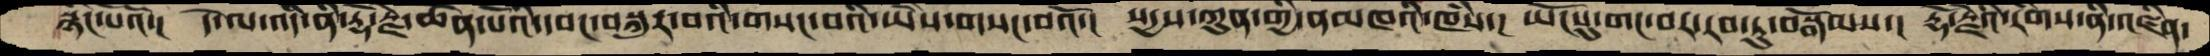སྙིང་པོའོ་།  དེ་ལ་འདི་ནི་རྡོ་རྗེ་ཆེན་པོའི་དབང་བསྐུར་བའི་གསང་བའི་ཡཻས་གསང་བའོ་།  སདྱས་ཀུན་གྱི་ནམཁའི་ཁཾས་།  ཡོངསུ་གང་བར་རབ་ཏུ་བསྒོམས་།  རྡོ་རྗེའི་རིགས་ནི་འཛིན་
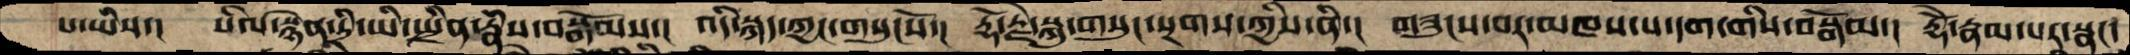པ་ཡིས་།  སིལ་སྙེན་དྲི་ཡི་སྤྲིན་རྣཾས་བསྒོམས་།  འདི་སྐད་ཀྱང་གསུངསོ་།  རྡོ་རྗེ་སྐུ་གསུང་སྔགས་ཀྱིས་ནི་།  གཟུངས་བར་མཁས་པ་དག་གིས་བསྒོམ་།  རྡོེ་རྣམ་པར་སྣང་
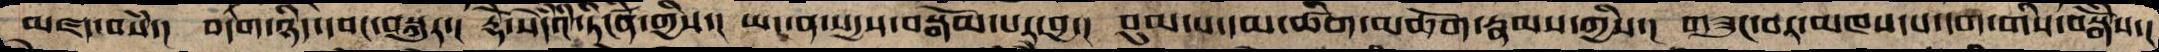མཛད་བསཾ་།  བདག་ཉིད་དབང་བསྐུར་།  རྡོེ་སེདཾའི་ཏིངཛིན་གྱིས་།  ཡང་ན་སདྱས་བསྒོམ་པར་བྱ་།  བུམ་པ་དམ་ཚིག་མཆོག་རྣམས་ཀྱིས་།  གཟུང་བར་མཁས་པ་དག་གིས་བསྒོཾས་།
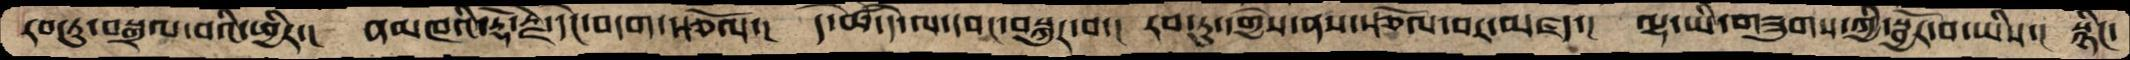རབ་ཏུ་བསྒྲལ་བའི་ཕྱིར་།  ནམཁའི་རྡོ་རྗེ་དེང་བདག་སྩོལ་།  དེ་ཚེ་དེ་ལ་དབང་བསྐུར་བ་།  རབ་ཏུ་དགྱེས་ནས་སྩོལ་བར་མཛད་།  ལྷ་ཡི་གཟུགས་ཀྱི་སྦྱོར་བ་ཡིས་།  སྙིང་
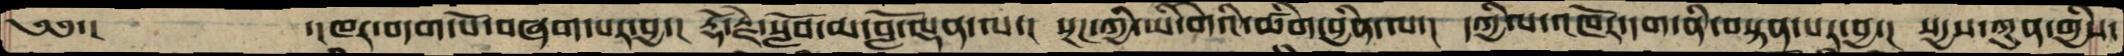༄༅་།    ་།ཁར་བདག་པོ་བཞག་པར་བྱ་།  རྡོ་རྗེ་སློབ་མ་བློ་ལྡན་ལ་།  སྔཌ་ཀྱི་ཡི་གེའི་ཚིག་བྱིན་ལ་།  དཀྱིལ་འཁོར་དག་ནི་བསྟན་པར་བྱ་།  སདྱས་ཀུན་གྱིས་
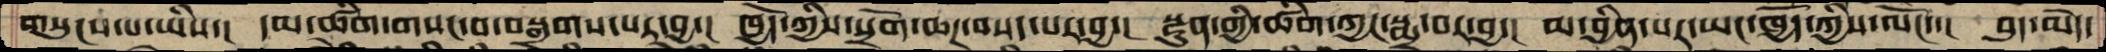གསུངས་པ་ཡིས་།  དམ་ཚིག་གསང་བ་བསྒུགས་པར་བྱ་།  ཁྱོད་ཀྱིས་སྲོག་ཆཌ་བསད་པར་བྱ་།  སྫུན་གྱི་ཚིག་ཀྱང་སྨྲ་བར་བྱ་།  མ་བྱིན་པར་ཡང་ཁྱོད་ཀྱིས་ལོང་་།  བུད་མེད་
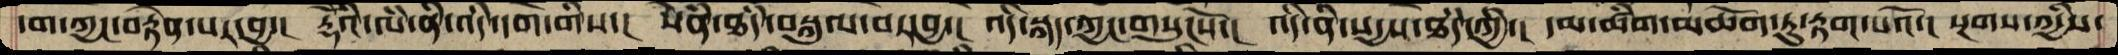དག་ཀྱང་བརྟེན་པར་བྱ་།  རྡོེའི་ལཾ་ནི་འདི་དག་གིས་།  སེཾན་ཐདཾ་བསྐུལ་བར་བྱ་།  འདི་སྐད་ཀྱང་གསུངསོ་།  འདི་ནི་སདྱས་ཐདཾ་ཀྱི་།  དམ་ཚིག་མཆོག་ཏུ་རྟག་པའོ་།  སྔགས་ཀྱིས་
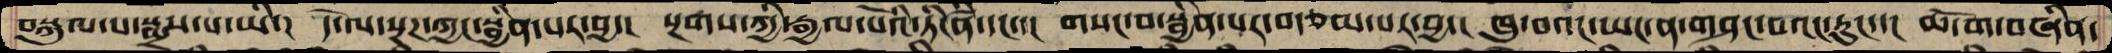བསྐུལ་པ་སྨྲས་པ་ཡི་།  དེ་ལ་སྔཌ་ཀྱང་སྦྱིན་པར་བྱ་།  སྔགས་ཀྱི་རྒྱལ་པོའི་ཏིངཛིན་དང་་།  གསང་བ་སྦྱིན་པར་བརྩམ་པར་བྱ་།  ཁུ་བའང་ཡང་ན་གཤང་བའང་རུང་་།  ཆོ་ག་བཞིན་
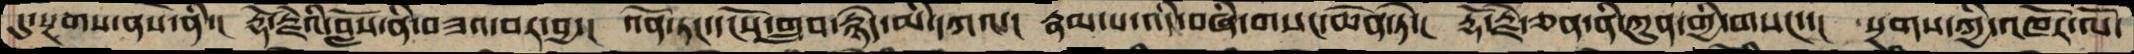དུ་སྔགས་ནས་ནི་།  རྡོ་རྗེའི་བློས་ནི་བཟའ་བར་བྱ་།  འོན་ཏང་དངོས་གྲུབ་རྙེད་མི་དཀའ་།  རྣམ་པ་འདི་བཞི་གསང་ཆེན་ཏེ་།  རྡོ་རྗེ་ཅན་ནི་ཀུན་གྱི་གསང་་།  སྔགས་ཀྱི་འཁོར་ལོ་
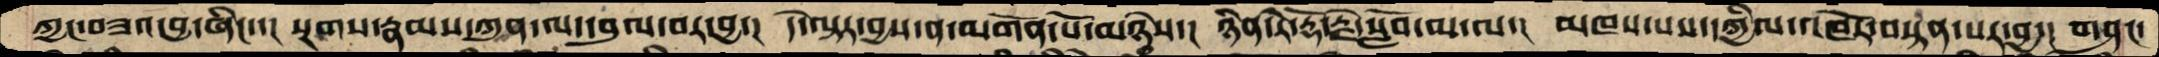ཀྱང་བཟའ་བྱ་ཞིང་་།  སྔགས་རྣམས་ཀུན་ལ་དབུལ་བར་བྱ་།  དེ་ལྟར་བྱས་ན་མགོན་པོ་མཉེས་།  ཉིན་རེ་རྡོ་རྗེ་སློབ་མ་ལ་།  མཁས་པས་དཀྱིལ་འཁོར་བསྟན་པར་བྱ་།  གཤང་
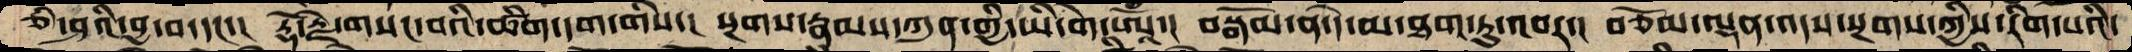ཅི་ཤའི་བྱ་བ་དང་་།  རྡོ་རྗེ་གསང་བའི་ཚིག་དག་གིས་།  སྔགས་རྣམས་ཀུན་གྱི་ཡི་གེ་ཨོཾ་།  བསྒོམ་ན་དེ་མ་ཐག་ཏུ་འབར་།  བཅོམ་ལྡན་འདས་སྔགས་ཀྱིས་རིག་པའི་
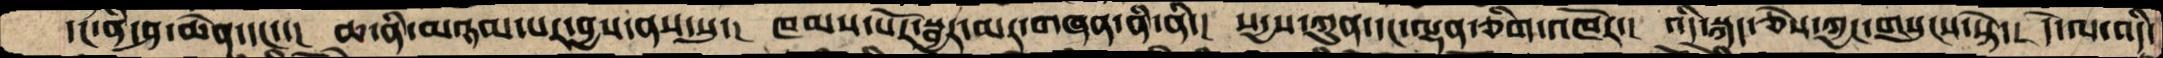དང་ནི་ཤ་ཆེན་དང་་།  ཆ་ནི་མཉམ་པར་བྱས་ནས་སུ་།  ཁམས་སོར་སྦྱར་མར་གཞན་ནི་ནི་།  སདྱས་ཀུན་དང་ལྡན་ཅིག་འཁོར་།  འདི་སྐད་ཅེས་ཀྱང་གསུངས་སྟེ་།  དེ་ལ་འདི་
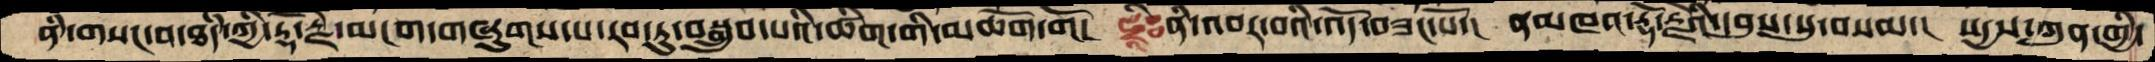ནི་གསང་བ་ཐཾད་ཀྱི་རྡོ་རྗེ་མངག་གཞུགས་པ་རབ་ཏུ་བསྒྲུབ་པའི་ཚིག་གི་མཆོག་གོ།  ཧྲིཿནི་འབར་བའི་འོད་བཟང་པོ་།  ནམཁའ་རྡོ་རྗེའི་དབུས་སུ་བསམ་།  སདྱས་ཀུན་གྱི་
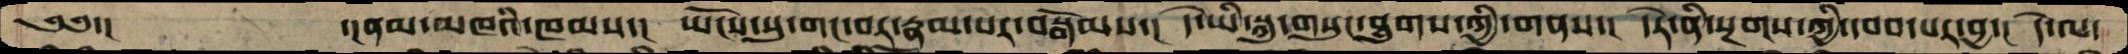༄༅་།      ་།ནམ་མཁའི་ཁམས་།  ཡོངས་སུ་གང་བར་རྣམ་པར་བསྒོམས་།  དེ་ཡི་སྐུ་གསུང་ཐུགས་ཀྱི་གནས་།  དེར་ནི་སྔགས་ཀྱི་དབབ་པར་བྱ་།  དེ་ལ་
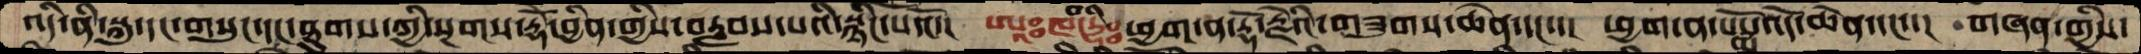འདི་ནི་སྐུ་དང་གསུང་དང་ཐུགས་ཀྱི་སྔགས་རྡོེ་བྱིན་གྱིས་བརླབས་པའི་སྙིང་པོའོ་།   ཨཱཿཁཾ་དྷིཿཕྱག་ན་རྡོ་རྗེའི་གཟུགས་ཆེན་དང་་།  ཕྱག་ན་པདྨོ་འོད་ཆེན་དང་་།  གཞན་གྱིས་
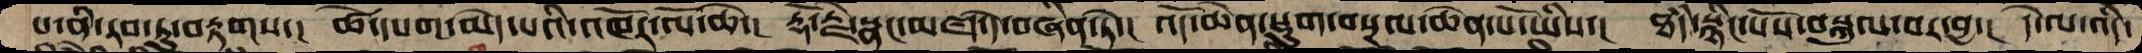པ་ནི་རབ་ཏུ་བརྟགས་།  ཚེ་དཔག་མེད་པའི་འཁོར་ལོ་ཆེ་།  རྡོ་རྗེ་སྣང་མཛད་དེ་བཞིན་ཏེ་།  འོད་ཆེན་སྡུག་བསྔལ་ཆེན་པོ་ཡིས་།  ཐདཾ་སྙིང་པོས་བསྐུལ་བར་བྱ་།  དེ་ལ་འདི་
